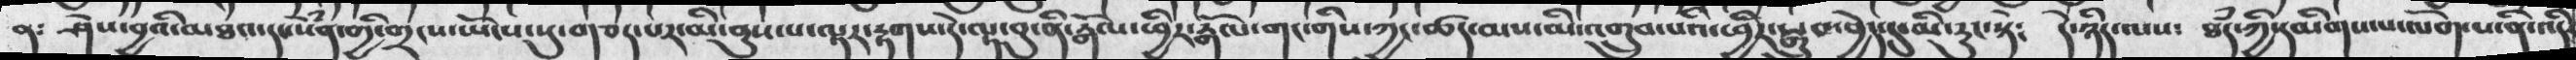ན༴ ཤེས་བྱའི་མཐའ་དང་སེཾན་གྱི་གྲངས་ཡོངས་སུ་གཅད་པར་མི་ནུས་པ་ལྟར་རྟགས་དེ་ལྟ་བུ་ནི་སྒོལ་ཕྱི་སྒོལ་གང་གིས་ཀྱང་ཚད་མས་མི་འགྲུབ་པའི་ཕྱིར་སྒྲུབ་བྱེད་དུ་མི་རུང་སྟེ༴    དེ་ཉིད་ལས༴    ཐཾད་ཀྱི་དམིགས་པ་ལ་ལོག་པ་ནི་འདི་
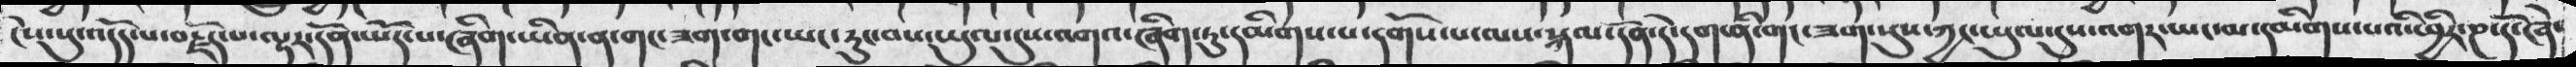ངེས་སུ་འདོད་པ་བརྗོད་པ་ལྟར་དོན་ཡོད་པ་ཞིག་ཡིན་ན་གང་ཟག་གང་ཡང་རུང་བས་ཡུལ་དུས་འགའ་ཞིག་ཏུ་དམིགས་པ་དགོས་པ་ལས་སྐལ་དོན་དེ་དག་ནི་གང་ཟག་སུས་ཀྱང་ཡུལ་དུས་འགར་ཡང་མ་དམིགས་པའི་ཕྱིར་ཎ་དོ་ཞེ་
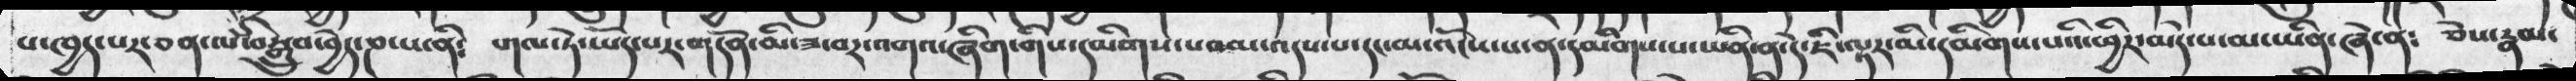པ་ཁྱད་པར་ཅན་ལ་བསྒྲུབ་བྱེད་ཎ་པ་ནི༴ གལ་ཏེ་ཡོད་པར་གདོན་མི་ཟ་བར་འགའ་ཞིག་གིས་དམིགས་པའམ་འདས་པ་དང་མ་འོངས་པ་ན་དམིགས་པ་ཡིན་ན་དེ་ཇི་ལྟར་མི་དམིགས་པའི་ཕྱིར་མེད་པ་མ་ཡིན་ཞེ་ན༴ ཅེས་རྣམ་
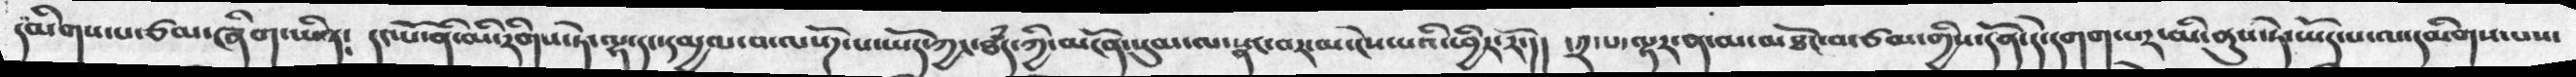དམིགས་པ་ཙམ་ཞིག་ཡིན༴ དང་པོ་ནི་མི་རིགས་ཏེ་ལྷ་དང་དམྱལ་བ་ལསོཌ་པ་ཡོད་ཀྱང་ཐཾད་ཀྱི་མངོན་སུམ་ལ་སྣང་བར་མ་ངེས་པའི་ཕྱིར་རོ་།། ་༢་པ་ལྟར་ན་མ་མཐོང་བ་ཙམ་གྱིས་དོན་དེ་དག་དགག་པར་མི་ནུས་ཏེ་ཡོད་པ་ལ་དམིགས་པས་
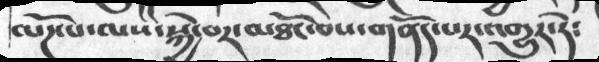ལོཌ་པ་ལས་སྐྱེ་བར་མཐོང་བས་གནོད་པར་འགྱུར་ཏེ༴
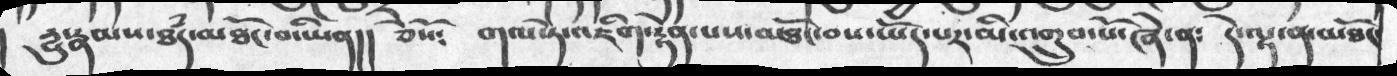དྱུ་རྣམས་ཏཾད་མཐོང་བ་ཡིན།། ཅེསོ༴ གལ་ཏེ་འཇིག་རྟེན་པས་མཐོང་བས་ཡོད་པར་མི་འགྲུབ་སོ་ཞེ་ན༴ དེ་ལྟ་ན་མཐོང་
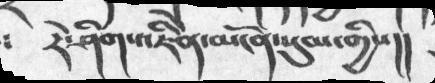རེ་ཤིག་འཇིེན་མངོན་སུམ་གྱིས།།
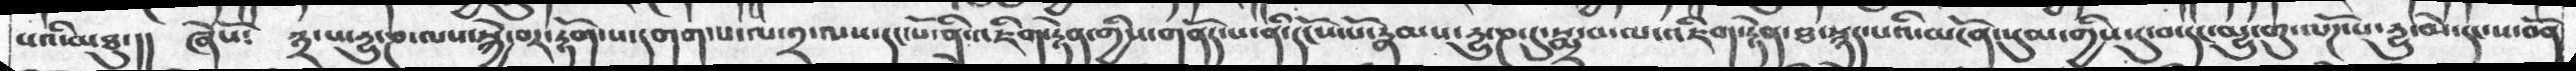པའི་མཐུ་།། ཞེསོ༴ ༣་པ་དྱུ་ཎ་ལས་སྐྱེ་བར་རྟོག་པ་དགག་པ་ལ་༢་ལས་དང་པོ་ནི་འཇིག་རྟེན་གྱིས་གནོད་པ་ནི་དངོས་པོ་རྣམས་དྱུ་ཎ་དུ་སྨྲ་བ་ལ་འཇིག་རྟེན་ཐ་སྙད་པའི་མངོན་སུམ་གྱིས་དུ་བ་དང་མྱུ་གུ་ལོཌ་པ་དྱུ་མེ་དང་ས་བོན
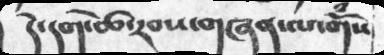དེ་དག་ཚེ་རབས་གཞན་ལ་གོཾས་
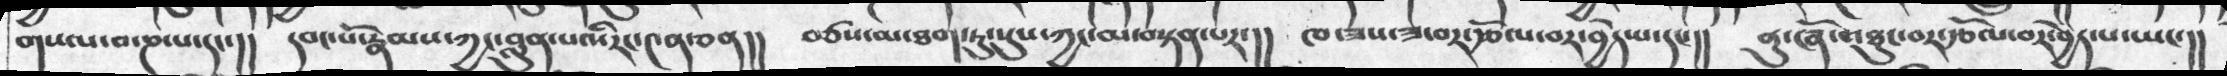གསལ་བ་ཎ་པ་དང་།། དབང་པོ་རྣམས་ཀྱང་བླུན་པའི་རང་༤ན་ཅན།། བཙས་མ་ཐག་ཏུ་སུས་ཀྱང་མ་བསྟན་པར་།། ཁ་ཟས་ཟ་བར་རྩོལ་བར་བྱེད་པ་དང་།། ནུ་ཞོ་འཐུང་བར་རྩོལ་བར་བྱེད་པ་ཡང་།།
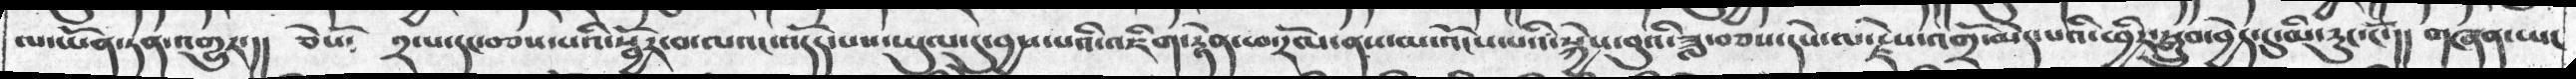ལ་ཡོན་ཏན་འགྱུར་།། ཅེསོ༴ ༢་པ་དང་བཅས་པའི་སྦྱོར་བ་ལའང་འདོད་པས་ཡུལ་དུ་བྱས་པའི་འཇིག་རྟེན་ཕ་རོལ་ནས་མ་འོངས་པའི་སྐྱེས་བུའི་ཟླ་བཅས་དེས་ལ་རྗེས་འགྲོ་མེད་པའི་ཕྱིར་སྒྲུབ་བྱེད་དུ་མི་རུང་ངོ་།། གཞན་ཡང
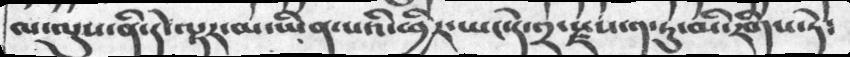ལ་ལུས་ནི་དེ་ལྟར་མ་ཡིན་པི་ཕྱིར་ཡང་དེ་༢་སྫས་༡་ཏུ་མ་རིགས་ཏེ༴
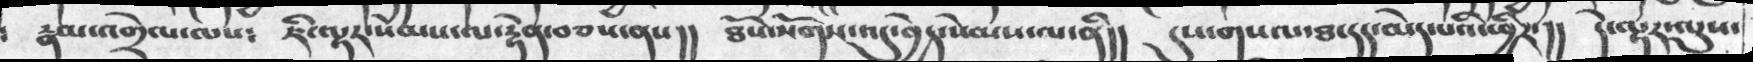རྣམ་འགྲེལ་ལས༴  ཇི་ལྟར་སེམས་ལ་རྟེན་བཅས་ནས།། ཐོས་སོགས་འདུ་བྱེད་སེམས་ལ་ནི།། དུས་གསལ་ཐ་དད་མེད་པའི་ཕྱིར་།། དེ་ལྟར་ལུས་
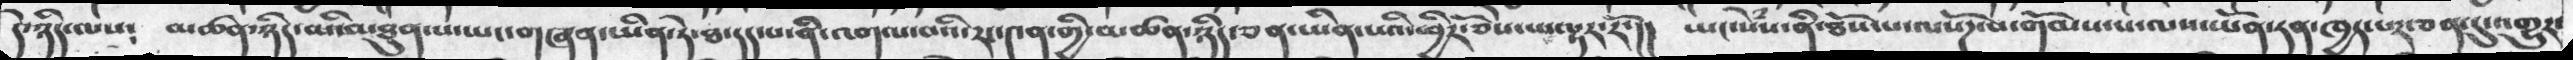དེ་ཉིད་ལས༴  མཚན་ཉིད་མི་མཐུན་པ་ཡང་གཞན་ཡིན་ཏེ་ཐ་དད་པ་ནི་འགལ་བའི་རང་༤ན་གྱི་མཚན་ཉིད་ཅན་ཡིན་པའི་ཕྱིརོ་ཅེས་པ་ལྟར་རོ་།།  ཡང་སེཾས་ནི་ཐོས་པ་ལསོཌ་པ་གོམས་པ་ལས་ཡོན་ཏན་ཁྱད་པར་ཅན་དུ་འགྱུར་
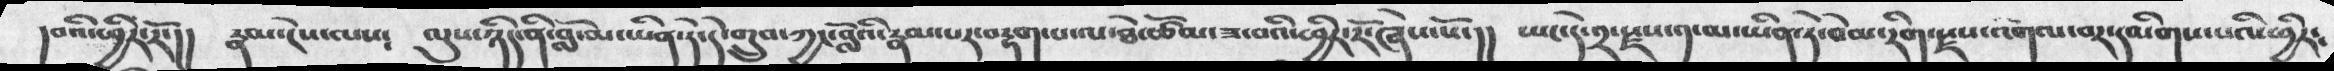།བའི་ཕྱིར་རོ་།།  རྣམ་ངེས་ལས༴ ལུས་ཉིད་ནི་བློ་མ་ཡིན་ཏེ་དེ་གྲུབ་ཀྱང་བློའི་རྣམ་པར་བརྟག་པ་ལ་ཐེ་ཚོམ་ཟ་བའི་ཕྱིར་རོ་ཞེས་སོ་།།  ཡང་དེ་༢་སྫས་༡་མ་ཡིན་ཏེ་བེམ་རིག་སྫས་འགལ་བར་དམིགས་པའི་ཕྱིར༴
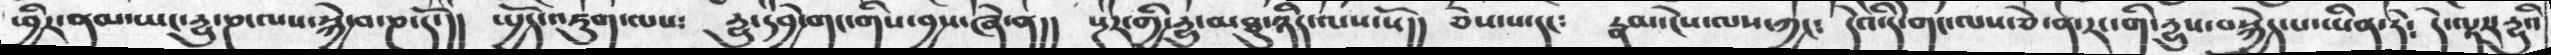ཕྱིར་ནམ་ཡང་དྱུ་ཎ་ལས་སྐྱེ་བ་ཎ་དོ་།། སྤྱོད་འཇུག་ལས༴ དྱུ་དབྱེ་གང་གིས་བྱས་ཞེ་ན།། སྔར་གྱི་དྱུ་མཐུ་ཉིད་ལས་སོ།། ཅེས་པ་དང༴ རྣམ་ངེས་ལས་ཀྱང༴ དེའི་དི་གང་ལས་ཅེ་ན་རང་གི་དྱུས་བསྐྱེད་པ་ཡིན་ཏེ༴ དེ་ལྟར་དྱུའི
